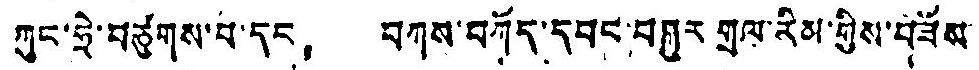ཀུང་ཧྲེ་བཙུགས་པ་དང， བཀས་བཀོད་དབང་བསྐུར གྲལ་རིམ་གྱིས་བཟོས
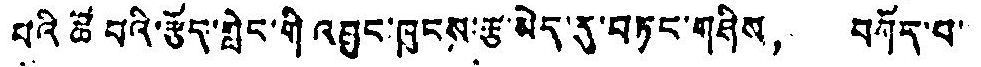པའི ཚེ བའི་རྩོད་གླེང་གི འབྱུང་ཁུངས་རྩ་མེད་རུ་བཏང་གཤིས， བཀོད་པ་
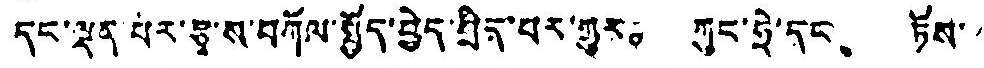དང་ལྡན པར་རྩྭ་ས་བཀོལ་སྤྱོད་བྱེད་སྲིད་བར་གྱུར。 ཀུང་ཧྲེ་དང、 ཏོས་ཀ
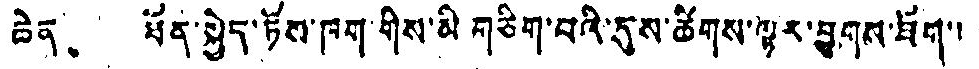ཆེན、 ཐོན་སྐྱེད་ཏོས་ཁག་གིས་མི གཅིག་པའི་དུས་ཚིགས་ལྟར་བྱུགས་ཐོག་
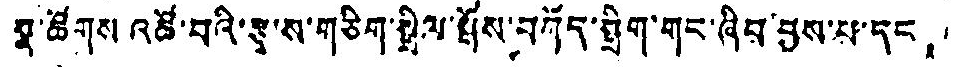སྣ་ཚོགས འཚོ་བའི་སྩ་ས་གཅིག་སྤྲིལ་སྤོས་བཀོད་སྒྲིག་གང་ཞིབ་བྱས་པ་དང，
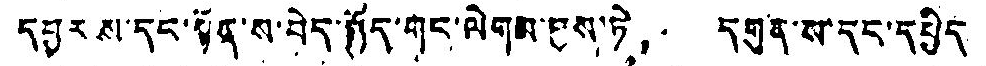དབྱརས་དང་སྟོན་ས་བེད་སྤྱོད་གང་ལེགས་བྱས་ཏེ， དགུན་ས་དང་དཔྱིད་
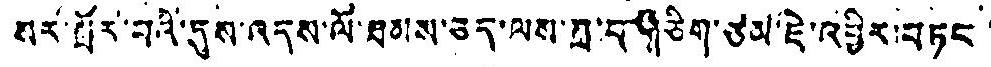སར་པོར་བའི་དུས་འདས་ལོ་ཐམས་ཅད་ལས་གྲ་བཤི ཅིག་ཙམ་ཇེ་འཕྱིར་བཏང
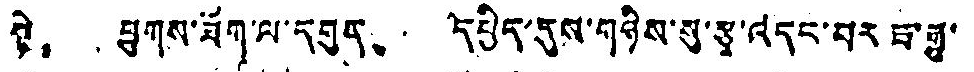སྟེ， ཕྱུགས་ཟོག་ལ་དགུན、 དཔྱིད་དུས་གཉིས་སུ་རྩྭ་འདང་བར ཟ་རྒྱུ་
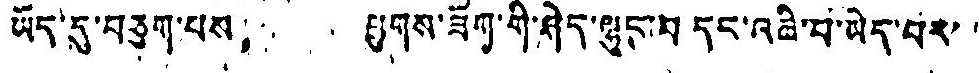ཡོད་དུ་བཅུག་པས， ཕྱུགས་ཟོག་གི་ཤེད་ལྷུང་བ དང་འཆི་བ་ཡེད་པར་་
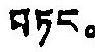བཏང。
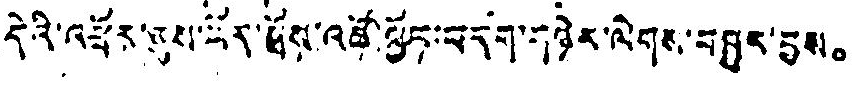དེའི་འཕྲོར་ཅུས་པོར་ཐོས་འཚོ་སྤྱོད་བདག་གཉེར་ལེགས་བཁྱུར་བས。
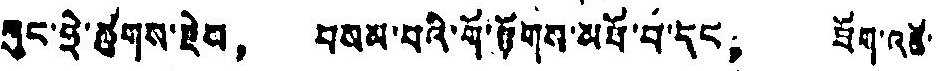ཀུང་ཧྲེ་ཚུགས་རྗེས， བསམ་པའི་གོ་རྟོགས་མཐོ་བ་དང， ཐོག་འཚོ་
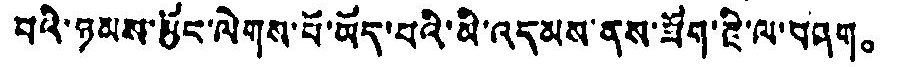བའི་ཉམས་མྱོང་ལེགས་པོ་ཡོད་པའི་མི་འདམས་ནས་ཟོག་རྫི་ལ་བཤག。
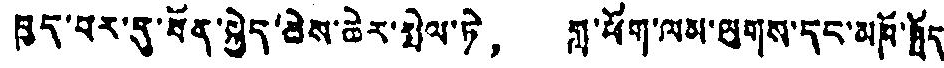ཁྱད་པར་དུ་ཐོན་སྐྱེད་ཆེས་ཆེར་སྤེལ་ཏེ， གླ་ཕོག་ལམ་ལུགས་དང་མཁོ་སྤྲོད་
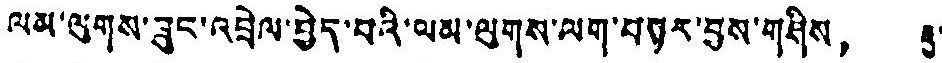ལམ་ལུགས་ཟུང་འབྲེལ་བྱེད་པའི་ལམ་ལུགས་ལག་བསྟར་བྱས་གཤིས， རྒྱུ་
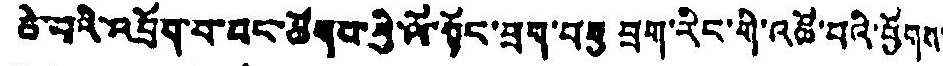ཆེ་བའི་འབྲོག་པ་བྱུང་ཚོགས་ཕྱི་ལོ་སོང་བྲག་བཅུ བྲག་རིང་གི་འཚོ་བའི་ཕྱོགས་
